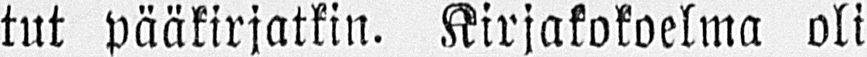tut pääkirjatkin. Kirjakokoelma oli
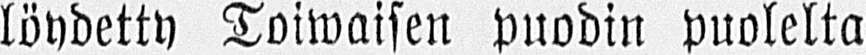löydetty Toiwaisen puodin puolelta
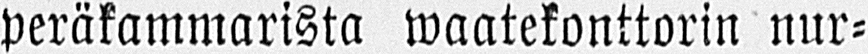peräkammarista waatekonttorin nur-
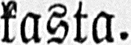kasta.
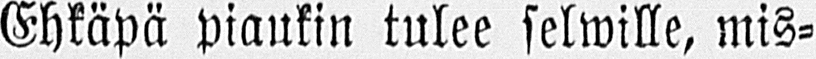Ehkäpä piankin tulee selwille, mis-
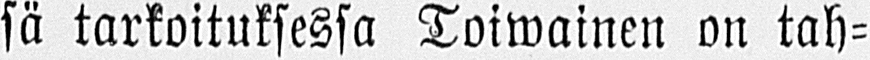sä tarkoituksessa Toiwainen on tah-
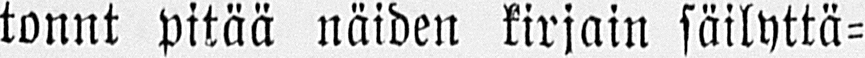tonnt pitää näiden kirjain säilyttä-
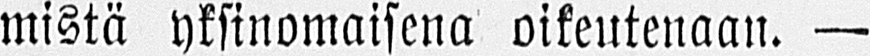mistä yksinomaisena oikeutenaan. —
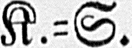K.-S.
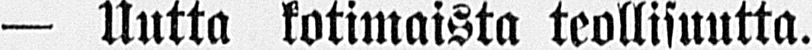— Uutta kotimaista teollisuutta.
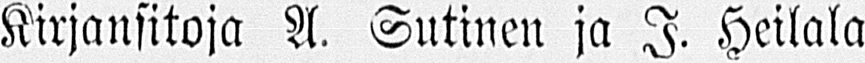Kirjansitoja A. Sutinen ja I. Heilala
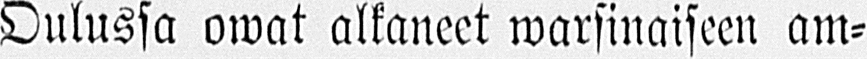Oulussa owat alkaneet warsinaiseen am-
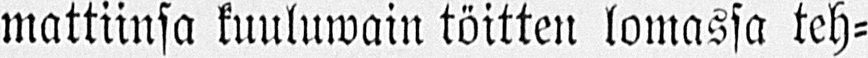mattiinsa kuuluwain töitten lomassa teh-
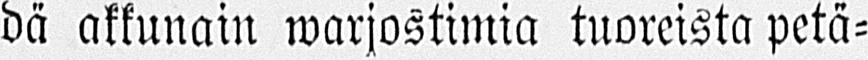dä akkunain warjostimia tuoreista petä-
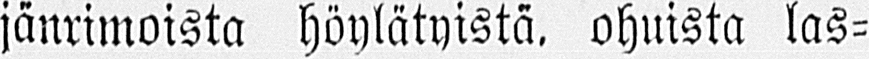jänrimoista höylätyistä, ohuista las-
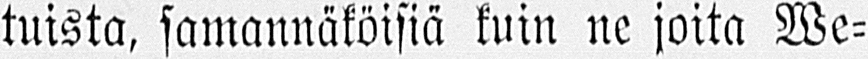tuista, samannäköisiä kuin ne joita We-
